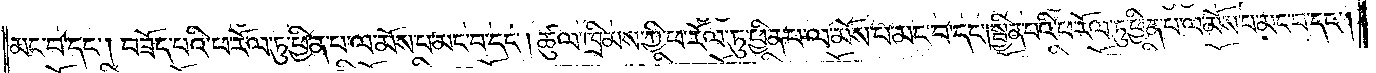མང་བ་དང༌། བཟོད་པའི་ཕ་རོལ་ཏུ་ཕྱིན་པ་ལ་མོས་པ་མང་བ་དང༌། ཚུལ་ཁྲིམས་ཀྱི་ཕ་རོལ་ཏུ་ཕྱིན་པ་ལ་མོས་པ་མང་བ་དང༌། སྦྱིན་པའི་ཕ་རོལ་ཏུ་ཕྱིན་པ་ལ་མོས་པ་མང་བ་དང༌།
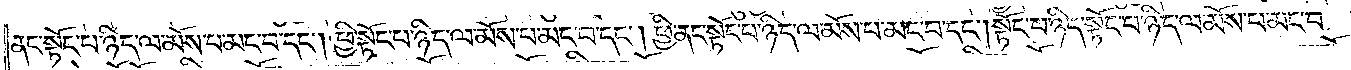ནང་སྟོང་པ་ཉིད་ལ་མོས་པ་མང་བ་དང༌། ཕྱི་སྟོང་པ་ཉིད་ལ་མོས་པ་མང་བ་དང༌། ཕྱི་ནང་སྟོང་པ་ཉིད་ལ་མོས་པ་མང་བ་དང༌། སྟོང་པ་ཉིད་སྟོང་པ་ཉིད་ལ་མོས་པ་མང་བ་
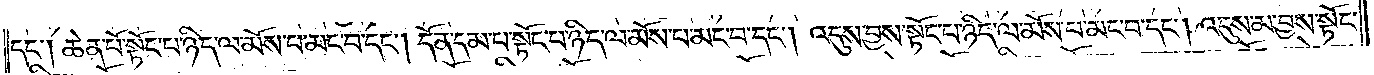དང༌། ཆེན་པོ་སྟོང་པ་ཉིད་ལ་མོས་པ་མང་བ་དང༌། དོན་དམ་པ་སྟོང་པ་ཉིད་ལ་མོས་པ་མང་བ་དང༌། འདུས་བྱས་སྟོང་པ་ཉིད་ལ་མོས་པ་མང་བ་དང༌། འདུས་མ་བྱས་སྟོང་
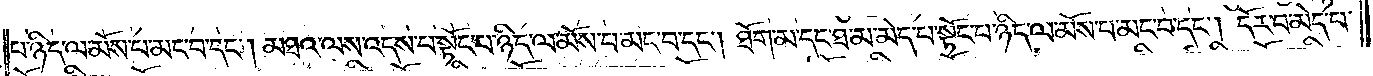པ་ཉིད་ལ་མོས་པ་མང་བ་དང༌། མཐའ་ལས་འདས་པ་སྟོང་པ་ཉིད་ལ་མོས་པ་མང་བ་དང༌། ཐོག་མ་དང་ཐ་མ་མེད་པ་སྟོང་པ་ཉིད་ལ་མོས་པ་མང་བ་དང༌། དོར་བ་མེད་པ་
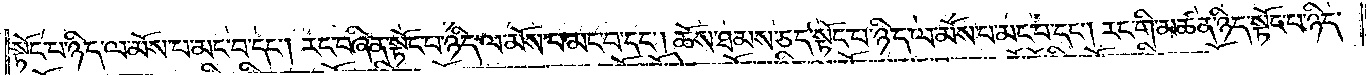སྟོང་པ་ཉིད་ལ་མོས་པ་མང་བ་དང༌། རང་བཞིན་སྟོང་པ་ཉིད་ལ་མོས་པ་མང་བ་དང༌། ཆོས་ཐམས་ཅད་སྟོང་པ་ཉིད་ལ་མོས་པ་མང་བ་དང༌། རང་གི་མཚན་ཉིད་སྟོང་པ་ཉིད་
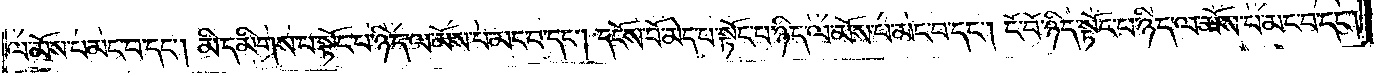ལ་མོས་པ་མང་བ་དང༌། མི་དམིགས་པ་སྟོང་བ་ཉིད་ལ་མོས་པ་མང་བ་དང༌། དངོས་པོ་མེད་པ་སྟོང་པ་ཉིད་ལ་མོས་པ་མང་བ་དང༌། ངོ་བོ་ཉིད་སྟོང་པ་ཉིད་ལ་མོས་པ་མང་བ་དང༌།
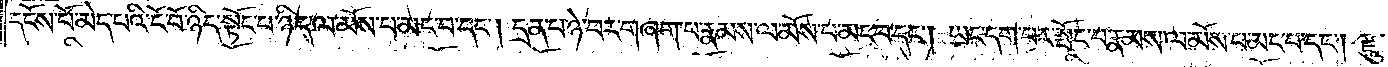དངོས་པོ་མེད་པའི་ངོ་བོ་ཉིད་སྟོང་པ་ཉིད་ལ་མོས་པ་མང་བ་དང༌། དྲན་པ་ཉེ་བར་གཞག་པ་རྣམས་ལ་མོས་པ་མང་བ་དང༌། ཡང་དག་པར་སྤོང་བ་རྣམས་ལ་མོས་པ་མང་བ་དང༌། རྫུ་
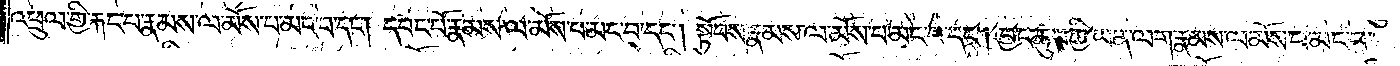འཕྲུལ་གྱི་རྐང་པ་རྣམས་ལ་མོས་པ་མང་བ་དང༌། དབང་པོ་རྣམས་ལ་མོས་པ་མང་བ་དང༌། སྟོབས་རྣམས་ལ་མོས་པ་མང་བ་དང༌། བྱང་ཆུབ་ཀྱི་ཡན་ལག་རྣམས་ལ་མོས་པ་མང་བ་
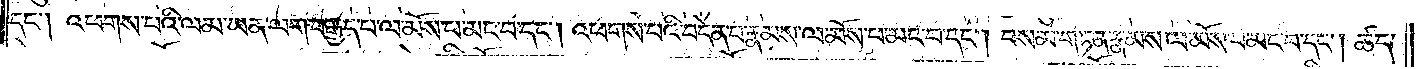དང༌། འཕགས་པའི་ལམ་ཡན་ལག་བརྒྱད་པ་ལ་མོས་པ་མང་བ་དང༌། འཕགས་པའི་བདེན་པ་རྣམས་ལ་མོས་པ་མང་བ་དང༌། བསམ་གཏན་རྣམས་ལ་མོས་པ་མང་བ་དང༌། ཚད་
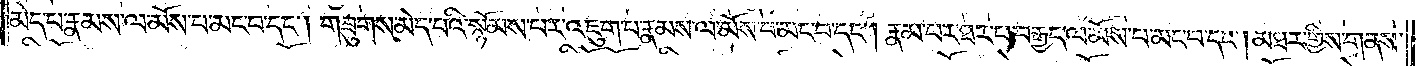མེད་པ་རྣམས་ལ་མོས་པ་མང་བ་དང༌། གཟུགས་མེད་པའི་སྙོམས་པར་འཇུག་པ་རྣམས་ལ་མོས་པ་མང་བ་དང༌། རྣམ་པར་ཐར་པ་བརྒྱད་ལ་མོས་པ་མང་བ་དང༌། མཐར་གྱིས་གནས་
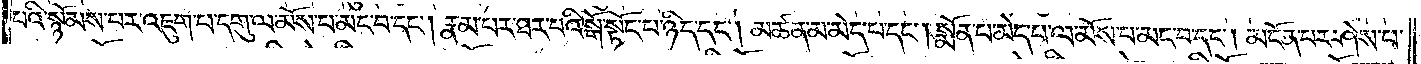པའི་སྙོམས་པར་འཇུག་པ་དགུ་ལ་མོས་པ་མང་བ་དང༌། རྣམ་པར་ཐར་བའི་སྒོ་སྟོང་པ་ཉིད་དང༌། མཚན་མ་མེད་པ་དང༌། སྨོན་པ་མེད་པ་ལ་མོས་པ་མང་བ་དང༌། མངོན་པར་ཤེས་པ་
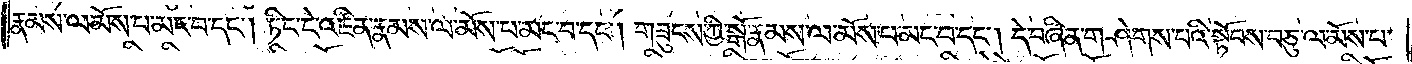རྣམས་ལ་མོས་པ་མང་བ་དང༌། ཏིང་ངེ་འཛིན་རྣམས་ལ་མོས་པ་མང་བ་དང༌། གཟུངས་ཀྱི་སྒོ་རྣམས་ལ་མོས་པ་མང་བ་དང༌། དེ་བཞིན་གཤེགས་པའི་སྟོབས་བཅུ་ལ་མོས་པ་
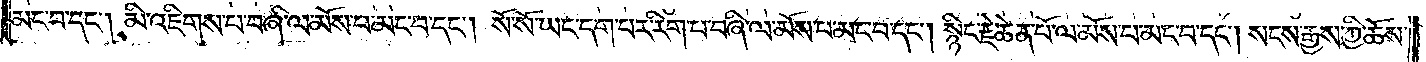མང་བ་དང༌། མི་འཇིགས་པ་བཞི་ལ་མོས་པ་མང་བ་དང༌། སོ་སོ་ཡང་དག་པར་རིག་པ་བཞི་ལ་མོས་པ་མང་བ་དང༌། སྙིང་རྗེ་ཆེན་པོ་ལ་མོས་པ་མང་བ་དང༌། སངས་རྒྱས་ཀྱི་ཆོས་
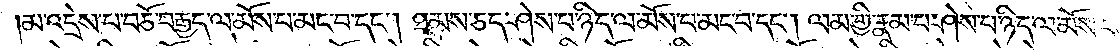མ་འདྲེས་པ་བཅོ་བརྒྱད་ལ་མོས་པ་མང་བ་དང༌། ཐམས་ཅད་ཤེས་པ་ཉིད་ལ་མོས་པ་མང་བ་དང༌། ལམ་གྱི་རྣམ་པར་ཤེས་པ་ཉིད་ལ་མོས་པ་མང་
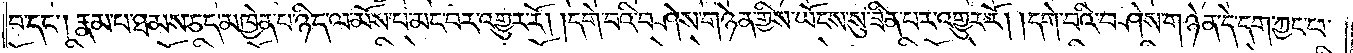བ་དང༌། རྣམ་པ་ཐམས་ཅད་མཁྱེན་པ་ཉིད་ལ་མོས་པ་མང་བར་འགྱུར་རོ། །དགེ་བའི་བཤེས་གཉེན་གྱིས་ཡོངས་སུ་ཟིན་པར་འགྱུར་རོ། །དགེ་བའི་བཤེས་གཉེན་དེ་དག་ཀྱང་ཕ་
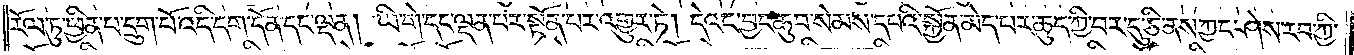རོལ་ཏུ་ཕྱིན་པ་དྲུག་པོ་འདི་དག་དོན་དང་ལྡན། ཡི་གེ་དང་ལྡན་པར་སྟོན་པར་འགྱུར་ཏེ། དེའང་བྱང་ཆུབ་སེམས་དཔའི་སྐྱོན་མེད་པར་ཆུད་ཀྱི་བར་དུ་ཅི་ནས་ཀྱང་ཤེས་རབ་ཀྱི་
